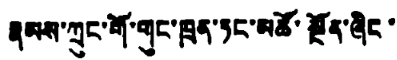རྣམས་ཀྲུང་གོ་གུང་ཁྲན་ཏང་མཚོ་སྔོན་ཞིང
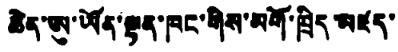ཆེན་ཨུ་ཡོན་ལྷན་ཁང་གིས་མགོ་ཁྲིད་མཛད་
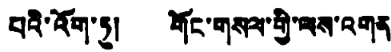པའི་འོག་ཏུ། གོང་གསལ་གྱི་ལས་འགན
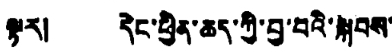ལྟར། དེང་ཕྱིན་ཆད་ཀྱི་བྱ་བའི་སྐབས་
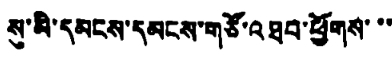སུ་མི་དམངས་དམངས་གཙོ་འཐབ་ཕྱོགས་་་
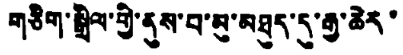གཅིག་སྒྲིལ་གྱི་ནུས་པ་མུ་མཐུད་དུ་རྒྱ་ཆེར་
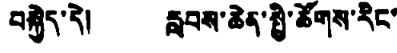བསྐྱེད་དེ། རླབས་ཆེན་སྤྱི་ཚོགས་རིང་
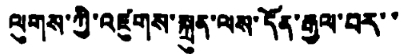ལུགས་ཀྱི་འཛུགས་སྐྲུན་ལས་དོན་རྒྱལ་བར་་
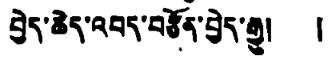བྱེད་ཆེད་འབད་བརྩོན་བྱེད་རྒྱུ། །
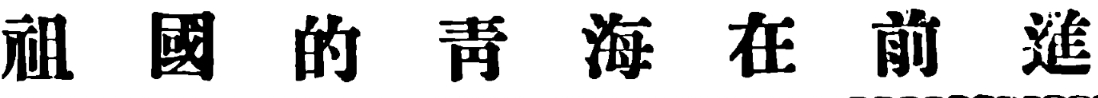祖 國 的 靑 海 在 前 進
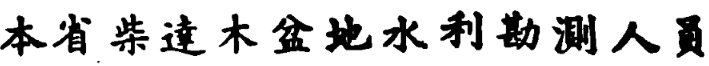本省柴達木盆地水利勘測人員
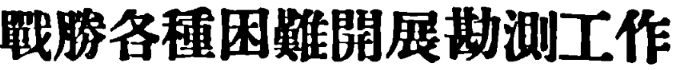戰勝各種困難開展勘測工作
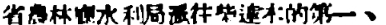省農林廳水利局派往柴達木盆地的第一、
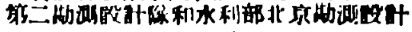第二勘測設計隊和水利部北京勘測設計
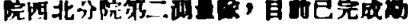院西北分院第二測量隊，目前已完成勘
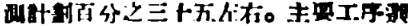測計劃百分之三十五左右。主要工序選
